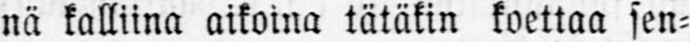nä kalliina aikoina tätäkin koettaa sen-
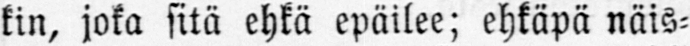kin, joka sitä ehkä epäilee; ehkäpä näis-
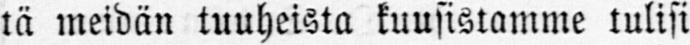tä meidän tuuheista kuusistamme tulisi
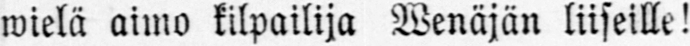wielä aimo kilpailija Wenäjän liiseille!
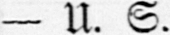— U. S.
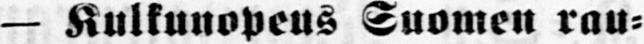— Kulkunopeus Suomen rau-
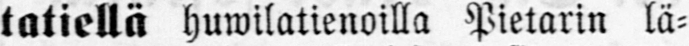tatiellä huwilatienoilla Pietarin lä-
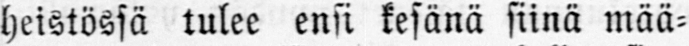heistössä tulee ensi kesänä siinä mää-
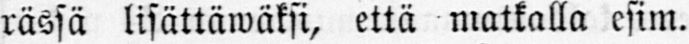rässä lisättäwäksi, että matkalla esim.
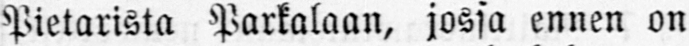Pietarista Pakkalaan, jossa ennen on
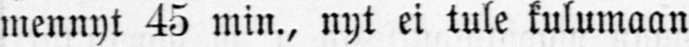mennyt 45 min., nyt ei tule kulumaan
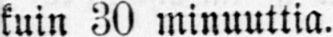kuin 30 minuuttia.
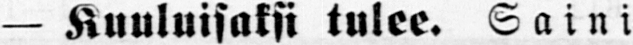— Kuuluisaksi tulee. Saini-
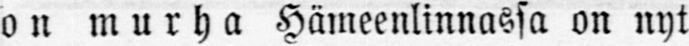on murha Hämeenlinnassa on nyt
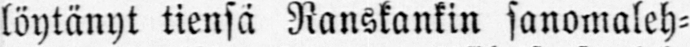löytänyt tiensä Ranskankin sanomaleh-
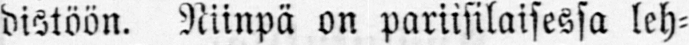distöön. Niinpä on pariisilaisessa leh-
